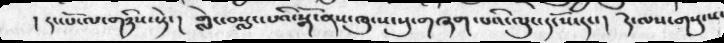། དང་པོ་ལ་གཉིས་སྟེ་།  གླེང་བསླང་པའི་སྒོ་ནས་ཁུ་ས་སུ་གཞག་པའི་ལུང་དང་སོ་དང་།  དེ་ལས་གསུ་ས་
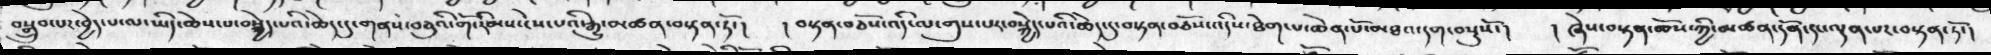བསྒྲུབ་པར་བྱེད་པ་ལ་ཡིད་ཆེས་པ་བསྐྱེད་པའི་ཆེད་དུ་གནས་བཅུའི་གོ་རིམས་ངེས་པའི་རྒྱུ་མཚན་བསྟན་ཏོ་།  ། བསྟན་བཅོས་འདི་ལ་གུས་པར་བསྐྱེད་པའི་ཆེད་དུ་བསྟན་བཅོས་འདིས་ཐེག་པ་ཆེན་པོ་མཐའ་དག་བསྡུསོ་།  ། ཞེས་བསྟན་ཆོས་ཀྱི་མཚན་དོན་དང་ལྡན་པར་བསྟན་ཏོ་།
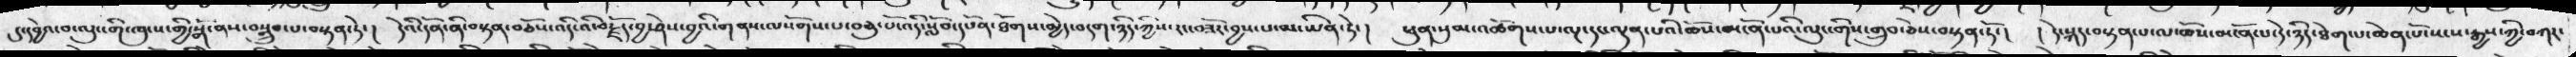དུ་དབྱེའ་བ་ལུང་གི་ཁུངས་གྱི་སྒོ་ནས་བསྒྲུབ་པ་བསྟན་ཏེ་།  དེའི་དོན་ནི་བསྟན་བཅོས་འདི་འི་བརྗོད་བྱ་ཤེས་བྱའི་གནས་ལསོགས་པ་བཅུ་པོ་འདི་སློབ་དཔོན་ཐོགས་མྱེད་བདག་ཉིད་ཀྱིས་རང་བཟོར་བྱས་པ་མ་ཡིན་ཏེ་།   ཕུན་སུམ་འཚོགས་པ་ལྔ་དང་ལྡན་པའི་ཆོས་མངོན་པའི་ལུང་གིས་གྲུབ་ཅེས་བསྟན་ཏོ་།  ། དེ་སྐད་བསྟན་པ་ལ་ཆོས་མངོན་པ་དེ་ཉིད་ཐེག་པ་ཆེན་པོ་སངས་རྒྱས་ཀྱི་བཀར་
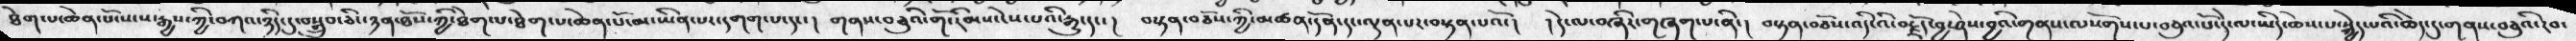ཐེག་པ་ཆེན་པོ་ས་ས་རྒྱས་ཀྱི་འཀའ་ཉིད་དུ་བསྒྲུབ་ཅིང་ཉན་ཐོས་ཀྱི་ཐེག་པ་ཐེག་པ་ཆེན་པོ་མ་ཡིན་པར་དགག་པ་དང་།  གནས་བཅུའི་གོ་རིམས་ངེས་པའི་རྒྱུ་དང་།  བསྟན་བཅོས་ཀྱི་མཚན་དོན་དང་ལྡན་པར་བསྟན་པའོ་།  ། དེ་ལ་བཞིར་གཞག་པ་ནི་།  བསྟན་བཅོས་འདི་འི་བརྗོད་བྱ་ཤེས་བྱའི་གནས་ལསོགས་པ་བཅུའ་པོ་དེ་ལ་ཡིད་ཆེས་པ་སྐྱེད་པའི་ཆེད་དུ་གནས་བཅུའི་རབ་
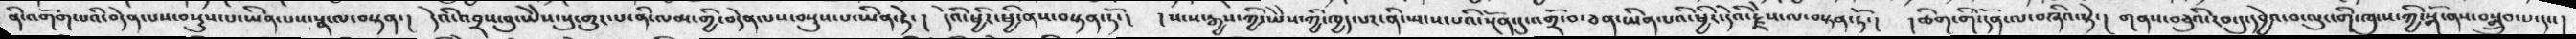ནི་འགོག་པའི་བདེན་པས་བསྡུས་པ་ཡིན་པས་སྣ་ལ་བསྟན་།  དེའི་འབྲས་བུ་ཡེེས་སུ་གུར་པ་ནི་ལམ་གྱི་བདེན་པས་བསྡུས་པ་ཡིན་ཏེ་ །  དེའི་ཕྱིར་ཕྱི་ནས་བསྟན་ཏོ་།  ། སངས་རྒྱས་ཀྱི་ཡེེས་ཀྱི་ཁྱད་པར་ནི་ཡངས་པའི་སྔོན་དུ་འགྲོ་བ་ཅན་ཡིན་པའི་ཕྱིར་དེའི་རྗེས་ལ་བསྟན་ཏོ་།  ། ཚིག་གི་དོན་ལ་བཞིའ་སྟེ་།  གནས་བཅུའི་རབ་དུ་དབྱེའ་བ་ལུང་གི་ཁུ་ས་ཀྱི་སྒོ་ནས་བསྒྲུབ་པ་དང་།
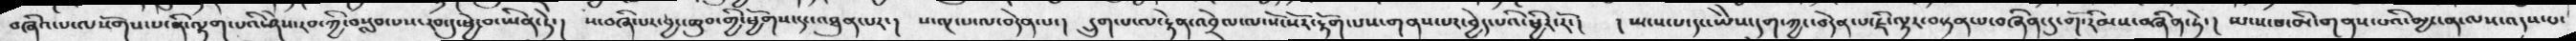བཞིའ་པ་ལསོགས་པ་ནི་ལྷག་པའི་ཤེས་རབ་ཀྱི་བསླབ་པས་རབ་དུ་ཕྱེ་བ་ཡིན་ཏེ་། ས་བཞི་པར་བྱང་ཆུབ་གྱི་ཕྱོགས་དང་མཐུན་པར་། ས་ལྔ་པ་ལ་བདེན་པ་། དྲུག་པ་ལ་རྟེན་འབྲེལ་ལ་ས་སོར་རྟོག་པས་གནས་པར་བྱེད་པའི་ཕྱིར་རོ་། །སྤངས་པ་དང་ཡེེས་དག་ཀྱང་བདེན་པ་ཇི་ལྟར་བསྟན་པ་བཞིན་དུ་གོ་རིམས་བཞིན་ཏེ་། སྤངས་བ་མི་གནས་པའི་མྱ་ངན་ལས་འདས་པ་
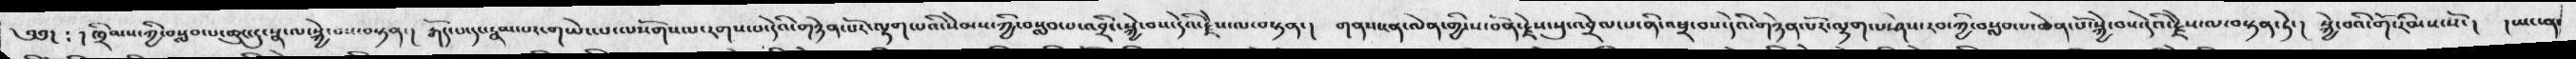༄༅། ༴ ། ཁྲིམས་ཀྱི་བསླབ་པ་ཆུང་དུ་སྣ་ལ་སྐྱེ་པས་བསྟན་།  རྒོད་པ་དང་རྣམ་པར་གཡེང་པ་ལསོགས་པ་རགས་པ་དེའི་གཉེན་པོར་ལྷག་པའི་སེམས་ཀྱི་བསླབ་པ་འབྲིང་སྐྱེ་བས་དེའི་རྗེས་ལ་བསྟན་། གནས་ངན་ལེན་གྱི་ས་བོན་རྗེས་སུ་འབྲེལ་པ་ནི་འཕྲ་བས་དེའི་གཉེན་པོར་ལྷག་པ་ཤེས་རབ་ཀྱི་བསླབ་པ་ཆེན་པོ་སྐྱེ་བས་དེའི་རྗེས་ལ་བསྟན་ཏེ་།  སྐྱེ་བའི་གོ་རིམས་སོ་།  །་ཡང་ན་
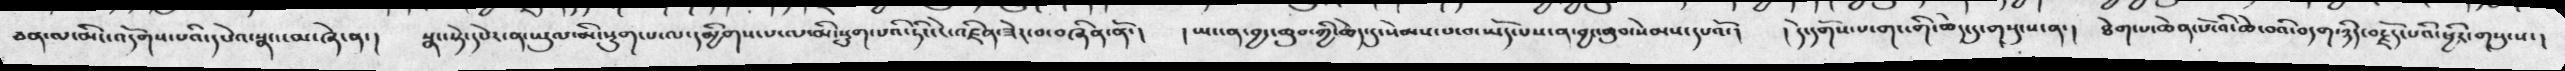ཅན་ལ་མིང་འདོགས་པའི་དཔེའ་སྣང་ངམ་ཞེ་ན་།  སྣང་སྟེ་དཔེར་ན་ཡུལ་མི་སྡུག་པ་ལ་དམྱིགས་པ་ལ་མི་སྡུག་པའི་ཏིང་ངེ་འཛིན་ཟེར་བ་བཞིན་ནོ་།   ། ཡང་ན་བྱང་ཆུབ་ཀྱི་ཆེད་དུ་སེམས་པ་བ་ཡོད་པས་ན་བྱང་ཆུབ་སེམས་དཔའོ་།  ། དེ་དགོས་པ་གང་གི་ཆེད་དུ་གསུངས་ན་།  ཐེག་པ་ཆེན་པོ་འི་ཆེ་བའི་བདག་ཉིད་བརྗོད་པའི་ཕྱིར་གསུངས་།
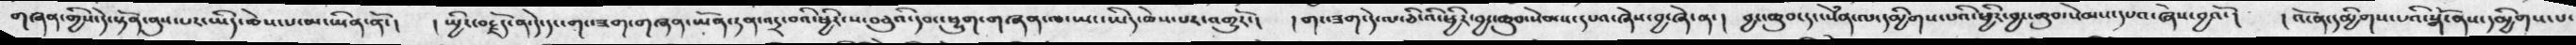གཞན་གྱིས་དེ་སྟོན་ནུས་པར་ཡིད་ཆེས་པ་མ་ཡིན་ནོ་།  ། སྤྱིར་བརྗོད་ན་དེ་དང་གང་ཟག་གཞན་ཡོན་ཏན་འདྲ་བའི་ཕྱིར་ས་བཅུའི་དབང་ཕྱུག་གཞན་ལ་ཡང་ཡིད་ཆེས་པར་འགྱུརོ་།  ། གང་ཟག་དེ་ལ་ཅི་འི་ཕྱིར་བྱང་ཆུབ་སེམས་དཔའ་ཞེས་བྱ་ཞེ་ན་།    བྱང་ཆུབ་དང་སེཾན་ལ་དམྱིགས་པའི་ཕྱིར་བྱང་ཆུབ་སེམས་དཔའ་ཞེས་བྱའོ་།  ། འོ་ན་དམྱིགས་པའི་སྒོ་ནས་དམྱིགས་པ་
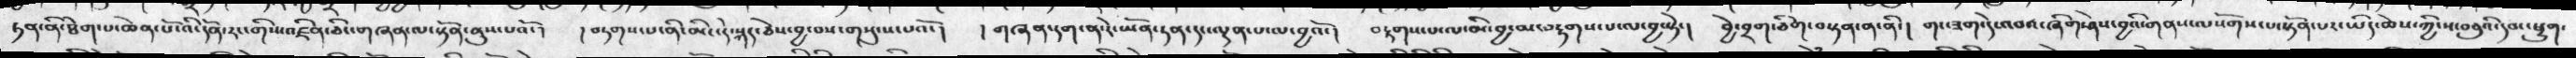ཏན་ནི་ཐེག་པ་ཆེན་པོ་འི་དོན་རང་གི་ས་འཛིན་ཅིང་གཞན་ལ་སྟོན་ནུས་པའོ་།  ། བཏགས་པ་ནི་མིང་དེ་སྐད་ཅེས་བྱ་བས་གསུངས་པའོ་། གཞན་དག་ན་རེ་ཡོན་ཏན་དང་ལྡན་པ་ལ་བྱའོ་།  བརྟགས་པ་ལ་མི་བྱ་མ་བརྟགས་པ་ལ་བྱ་སྟེ་།  བྱེ་བྲག་ཅིག་བསྟན་ན་ནི་།  གང་ཟག་དེ་འབའ་ཞིག་ཤེས་བྱའི་གནས་ལསོགས་པ་སྟོན་པར་ཡིད་ཆེས་ཀྱི་ས་བཅུའི་དབང་ཕྱུག་
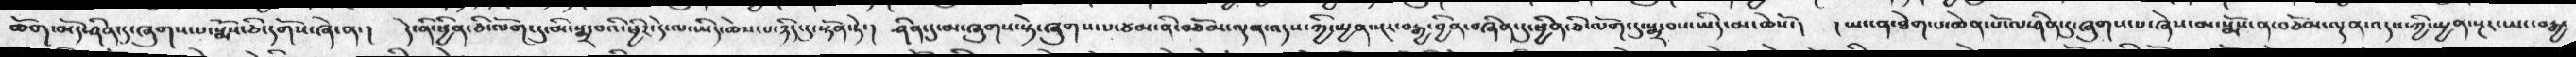ཆོག་མོད་ནི་ཤིན་དུ་ཞུགས་པ་སྨོས་ཅི་དགོས་ཞེ་ན་།  དེ་ནི་ཕྱིན་ཅི་ལོག་དུ་མི་སྨྲ་བའི་ཕྱིར་དེ་ལ་ཡིད་ཆེས་པ་ཉིད་དུ་སྟོན་ཏེ་། ཤིན་དུ་མ་ཞུགས་ཏེ་ཞུགས་པ་ཙམ་ནི་བཅོམ་ལྡན་འདས་ཀྱི་སྤྱན་སྔར་བརྒྱ་བྱིན་བཞིན་དུ་ཕྱིན་ཅི་ལོག་དུ་སྨྲ་བས་ཡིད་མ་ཆེསོ་།  ། ཡང་ན་ཐེག་པ་ཆེན་པོ་ལ་ཤིན་དུ་ཞུགས་པ་ཞེས་མ་སྨོས་ན་བཅོམ་ལྡན་འདས་ཀྱི་སྤྱན་སྔར་ཡང་བརྒྱ་
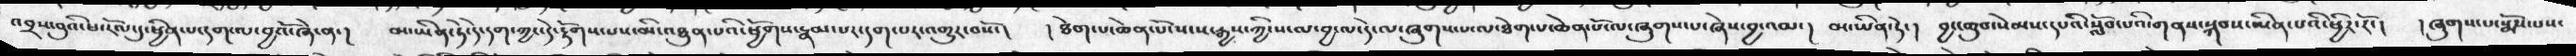འབྲས་བུའི་ཕ་རོལ་དུ་ཕྱིན་པ་དག་ལ་བྱའོ་ཞེ་ན་།    མ་ཡིན་ཏེ་དེ་དག་ཀྱང་དེ་རྟོགས་པས་མི་འཐུན་པའི་ཕྱོགས་རྣམ་པར་དག་པར་འགྱུར་བསོ་།  །ཐེག་པ་ཆེན་པོ་སངས་རྒྱས་ཀྱི་ས་ལ་བྱ་ལ་དེ་ལ་ཞུགས་པ་ལ་ཐེག་པ་ཆེན་པོ་ཞུགས་པ་ཞེས་བྱ་འམ་།  མ་ཡིན་ཏེ་།  བྱང་ཆུབ་སེམས་དཔའི་སློབ་པའི་གནས་སྐབས་མིན་པའི་ཕྱིར་རོ་།  །ཞུགས་པ་སྨོས་པས་
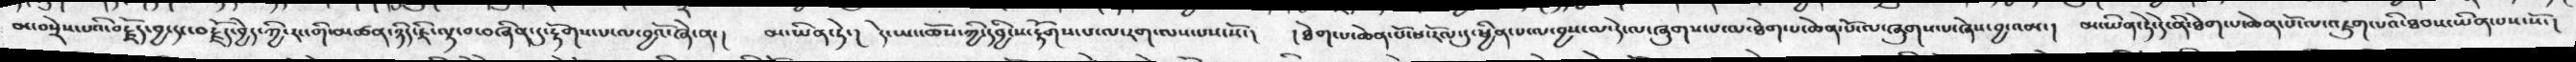མ་བསྲེས་པའི་བརྗོད་བྱ་དང་བརྗོད་བྱེད་ཀྱི་རང་གི་མཚན་ཉིད་ཇི་ལྟ་བ་བཞིན་དུ་རྟོགས་པ་ལ་བྱའོ་ཞེ་ན་།  མ་ཡིན་ཏེ་།  དེ་ཡང་ཆོས་ཀྱི་དབྱིངས་རྟོགས་པ་ལ་རག་ལས་པས་སོ་། །ཐེག་པ་ཆེན་པོ་ཕ་རོལ་དུ་ཕྱིན་པ་ལ་བྱས་ལ་དེ་ལ་ཞུགས་པ་ལ་ཐེག་པ་ཆེན་པོ་ལ་ཞུགས་པ་ཞེས་བྱ་འམ་།  མ་ཡིན་ཏེ་དེ་ནི་ཐེག་པ་ཆེན་པོ་ལ་འཇུག་པའི་ཐབས་ཡིན་སཔས་སོ་།
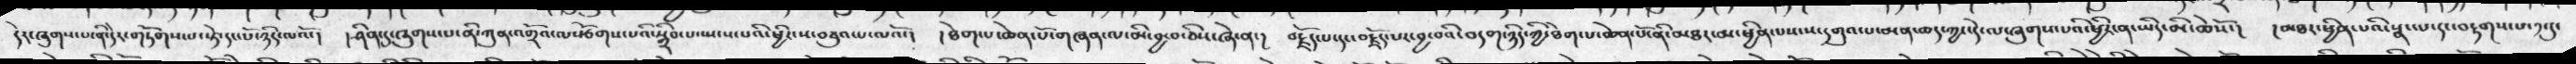དེར་ཞུགས་པ་ནི་དེར་གཏོགས་པ་ཏེ་དང་པོ་ཉིད་ལའོ་། །ཤིན་དུ་ཞུགས་པ་ནི་ཀུན་འགྲོའ་ལ་རྩོགས་པའི་སྒྲིབ་པ་སྤངས་པའི་ཕྱིར་ས་བཅུ་པ་ལའོ་། །ཐེག་པ་ཆེན་པོ་ལ་གཞན་མི་བྱ་བ་ཅིས་ཞེས་ན་། བརྗོད་པ་དང་བརྗོད་པར་བྱ་བའི་བདག་ཉིད་ཀྱི་ཐེག་པ་ཆེན་པོ་ནི་མཐར་མ་ཕྱིན་པས་ས་དགུའ་པ་མན་ཆད་ཀྱང་དེ་ལ་ཞུགས་པའི་ཕྱིར་ན་ཡིད་མི་ཆེསོ་།  །མཐར་ཕྱིན་པའི་སྣང་པ་དང་བརྟགས་པ་༡་དུ་
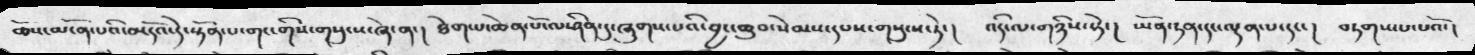ཆོས་མངོན་པའི་མདོའ་དེ་སྟོན་པ་གང་གིས་གསུངས་ཞེ་ན་།  ཐེག་པ་ཆེན་པོ་ལ་ཤིན་དུ་ཞུགས་པའི་བྱང་ཆུབ་སེམས་དཔས་གསུངས་ཏེ་། འདི་ལ་གཉིས་སྟེ་།  ཡོན་ཏན་དང་ལྡན་པ་དང་། བཏགས་པ་པའོ་།
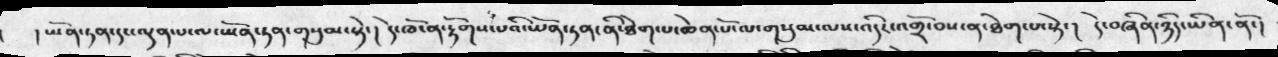། ཡོན་ཏནདང་ལྡན་པ་ལ་ཡོན་ཏན་གསུམ་སྟ་ེ།  དེ་ཁོ་ན་རྟོགས་པའི་ཡོན་ཏན་ནི་ཐེག་པ་ཆེན་པོ་ལ་གསུམ་ལས་འདིར་འགྲོ་བས་ན་ཐེག་པ་སྟེ་།  དེ་བཞིན་ཉིད་ཡིན་ནོ་།
